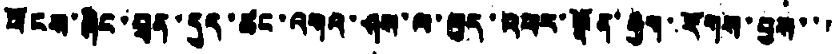ཕོངས་ཞིང་བྲན་དུད་ཚང་འགའ་ཤས་ལ་ལུད་འཕར་སྣོན་རྒྱག་རོགས་བྱས་་་
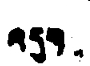འདུག
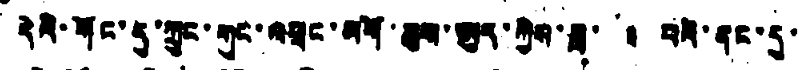དེའི་གོང་དུ་ཀྲུང་གུང་འཕྲང་མགོ་ཆུས་ཨུད་ཀྱིས་ཟླ་ ༣ པའི་ནང་དུ་
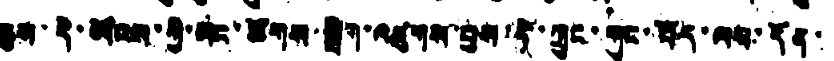ཆུས་དེ་ཡོངས་ཀྱི་མང་ཚོགས་སྒྲིག་འཛུགས་བྱས་ཏེ་ཀྲུང་གུང་བོད་ལས་དོན་
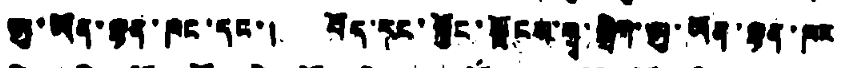ཨུ་ཡོན་ལྷན་ཁང་དང་། བོད་རང་སྐྱོང་ལྗོངས་གྲྭ་སྒྲིག་ཨུ་ཡོན་ལྷན་ཁང
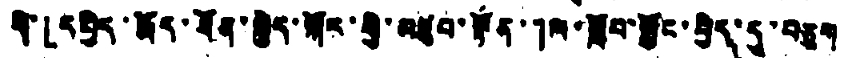གི་「དཔྱིད་རྨོད་ཐོན་སྐྱེད་སྐོར་གྱི་མཛུབ་སྟོན་」ལ་སློབ་སྦྱོང་བྱེད་དུ་བཅུག
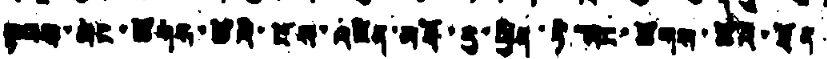སྟབས་མང་ཚོགས་ཚོའི་ངོས་འཛིན་མཐོ་རུ་ཕྱིན་ཏེ་མང་ཚོགས་ཚོའི་ཐོན་
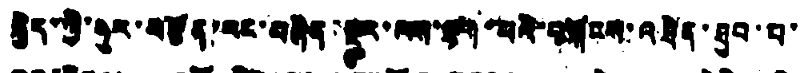སྐྱེད་ཀྱི་ཧུར་བརྩོན་རང་བཞིན་སྔར་ལས་ལྷག་པའི་བསྐོངས་འཐེན་ཐུབ་པ་
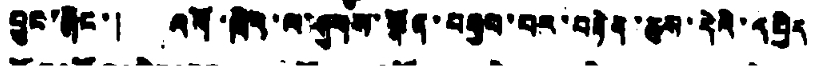བྱུང་ཞིང་། འགོ་ཁྲིད་ལ་ཤུགས་སྣོན་བརྒྱབ་བར་བརྟེན་ཆུས་དེའི་དཔྱིད
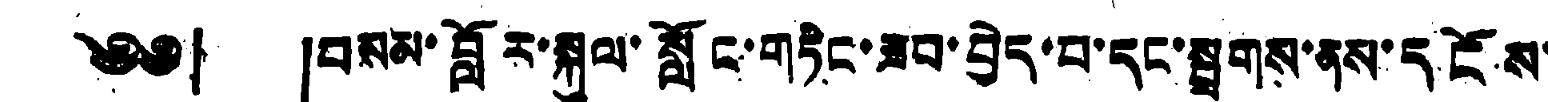༄༅། །བསམ་བློར་སྐུལ་སློང་གཏིང་ཟབ་བྱེད་པ་དང་སྦྲགས་ནས་དངོས་
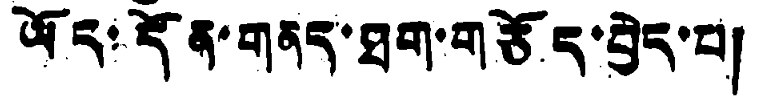ཡོད་དོན་གནད་ཐག་གཅོད་བྱེད་པ།
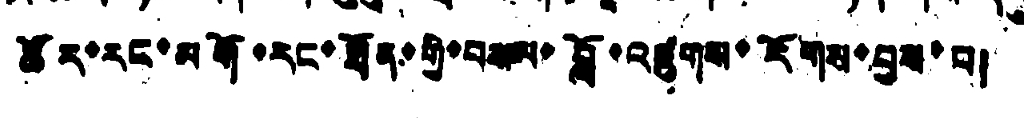ཚོར་རང་མགོ་རང་ཐོན་གྱི་བསམ་བློ་འཛུགས་རོགས་བྱས་པ།
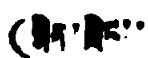(སྨིན་གླིང་་
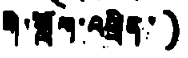གི་གློག་འཕྲིན་)
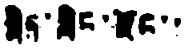སྨིན་གླིང་རྫོང་་
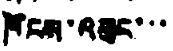ཁོངས་འཕུང་་་
